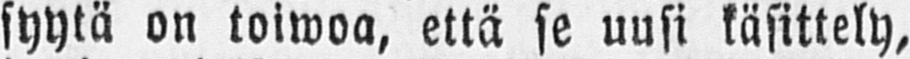syytä on toiwoa, että se uusi käsittely,
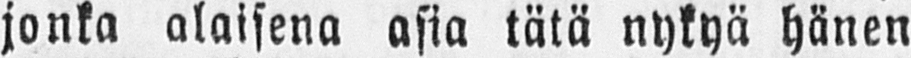jonka alaisena asia tätä nykyä hänen
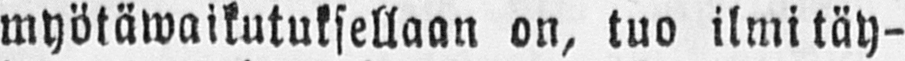myötäwaikutuksellaan on, tuo ilmi täy-
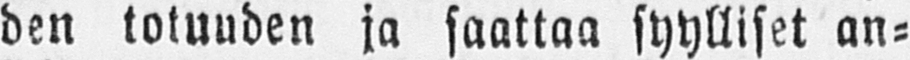den totuuden ja saattaa syylliset an-
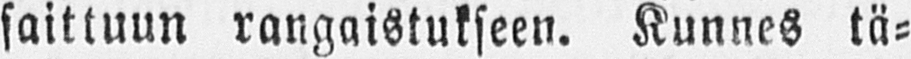saittuun rangaistukseen. Kunnes tä-
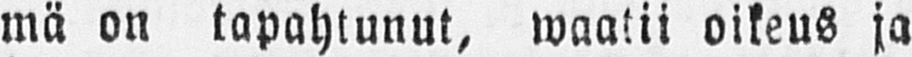mä on tapahtunut, waatii oikeus ja
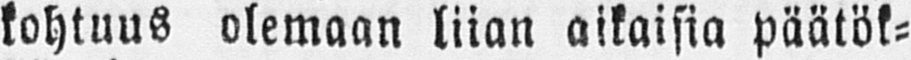kohtuus olemaan liian aikaisia päätök-
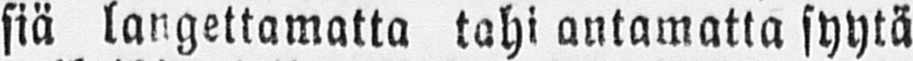siä langettamatta tahi antamatta syytä
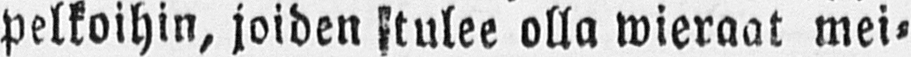pelkoihin, joiden tulee olla wieraat mei-
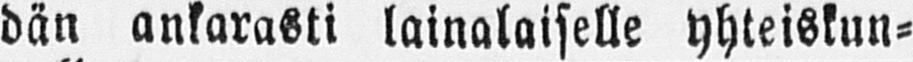dän ankarasti lainalaiselle yhteiskun-
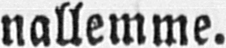nallemme.
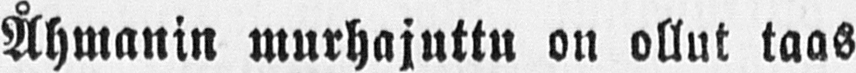Åhmanin murhajuttu on ollut taas
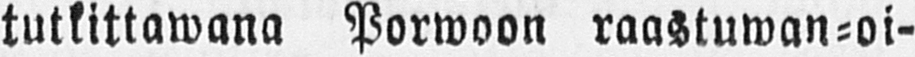tutkittawana Porwoon raastuwan-oi-
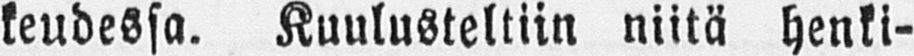keudessa. Kuulusteltiin niitä henki-
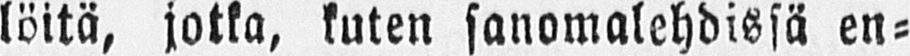löitä, jotka, kuten sanomalehdissä en-
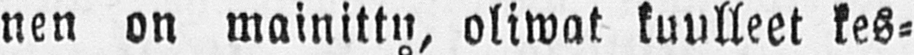nen on mainittu, oliwat kuulleet kes-
